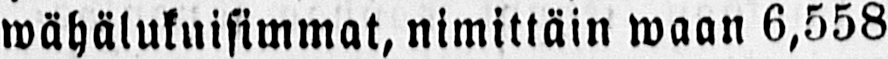wähälukuisimmat, nimittäin waan 6,558
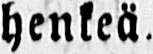henkeä.
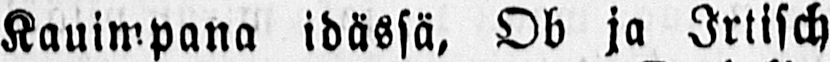Kauimpana idässä, Ob ja Irtisch
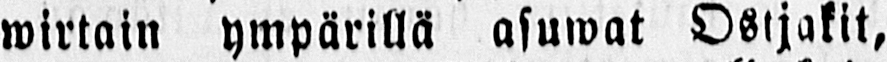wirtain ympärillä asuwat Ostjakit,
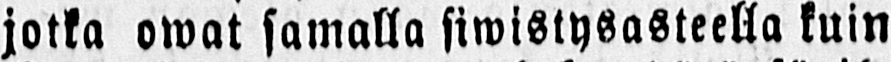jotka omat samalla siwistysasteella kuin
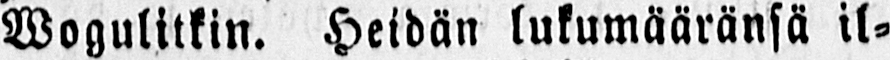Wogulitkin. Heidän lukumääränsä il-
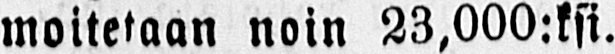moitetaan noin 23,000:ksi.
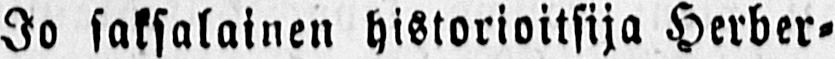Jo saksalainen historioitsija Herber-
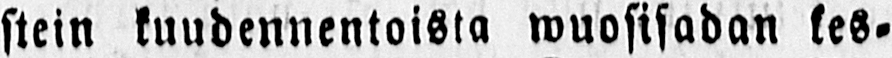stein kuudennentoista wuosisadan kes-
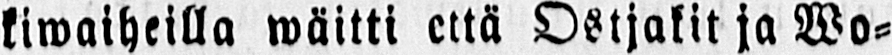kiwaiheilla wäitti että Ostjakit ja Wo-
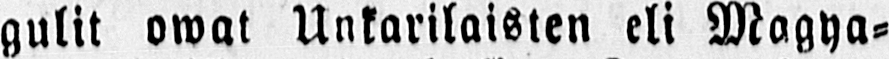gulit owat Unkarilaisten eli Magya-
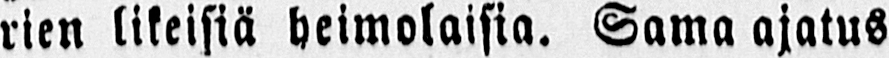rien likeisiä heimolaisia. Sama ajatus
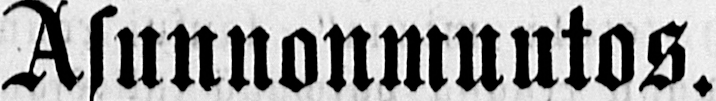Asunnonmuutos.
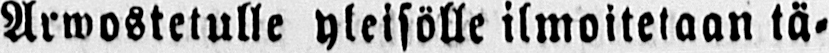Arwostetulle yleisölle ilmoitetaan tä-
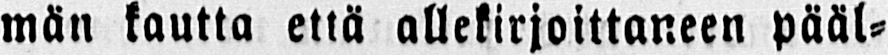män kautta että allekirjoittaneen pääl-
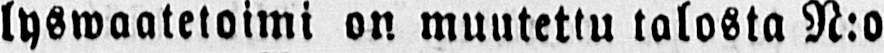lyswaatetoimi on muutettu talosta N:o
